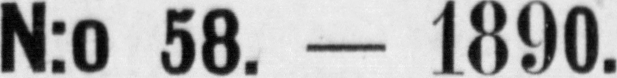N:o 58. — 1890.
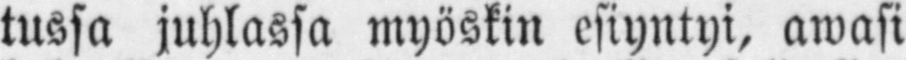tussa juhlassa myöskin esiyntyi, awasi
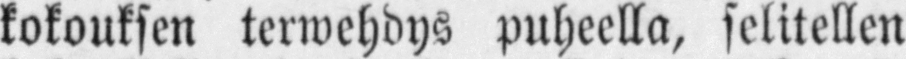kokouksen terwehdys puheella, selitellen
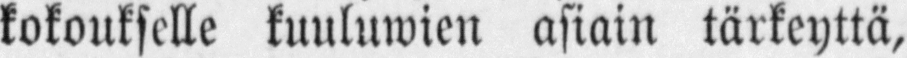kokoukselle kuuluwien asiain tärkeyttä,
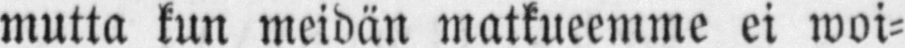mutta kun meidän matkueemme ei woi-
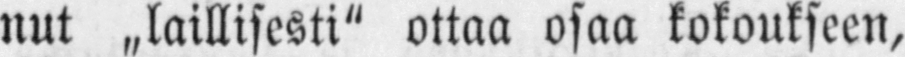nut „laillisesti" ottaa osaa kokoukseen,
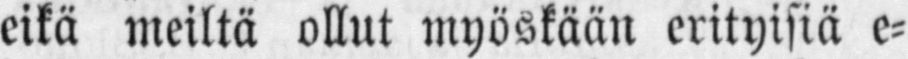eikä meiltä ollut myöskään erityisiä e-
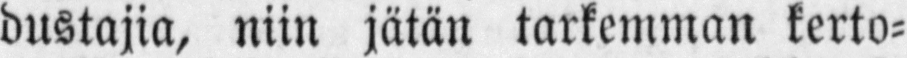dustajia, niin jätän tarkemman kerto-
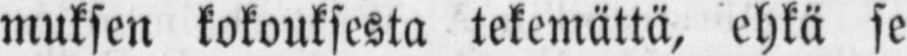muksen kokouksesta tekemättä, ehkä se
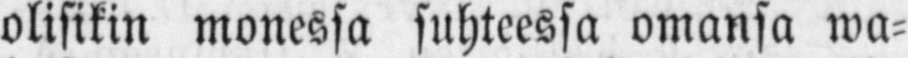olisikin monessa suhteessa omansa wa-
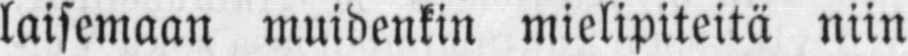laisemaan muidenkin mielipiteitä niin
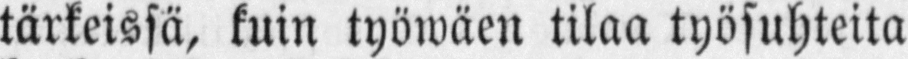tärkeissä, kuin työwäen tilaa työsuhteita
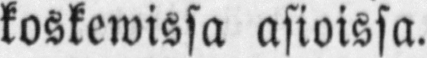koskewissa asioissa.
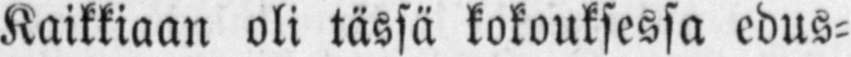Kaikkiaan oli tässä kokouksessa edus-
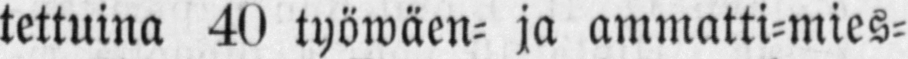tettuina 40 työwäen- ja ammatti-mies-
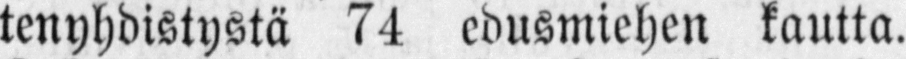tenyhdistystä 74 edusmiehen kautta.
